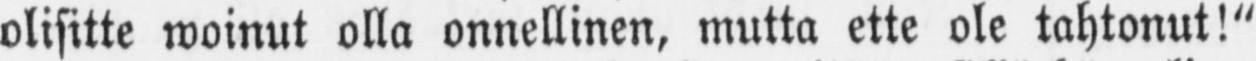olisitte woinut olla onnellinen, mutta ette ole tahtonut!"
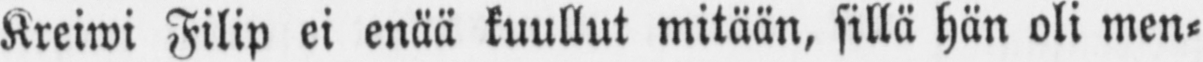Kreiwi Filip ei enää kuullut mitään, sillä hän oli men-
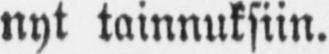nyt tainnuksiin.
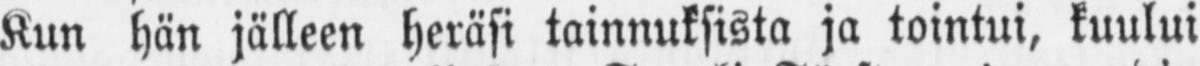Kun hän jälleen heräsi tainnuksista ja tointui, kuului
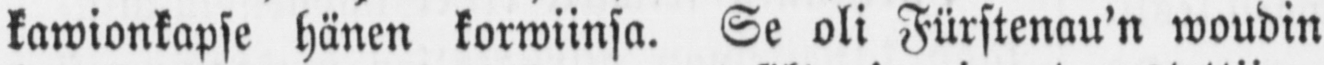kawionkapse hänen korwiinsa. Se oli Fürstenau'n woudin
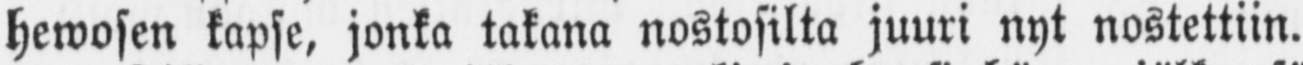hewosen kapse, jonka takana nostosilta juuri nyt nostettiin.
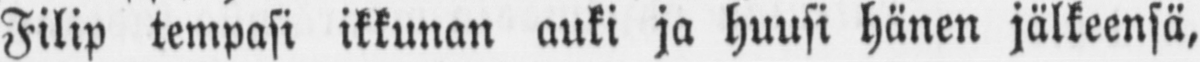Filip tempasi ikkunan auki ja huusi hänen jälkeensä,
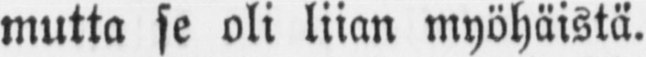mutta se oli liian myöhäistä.
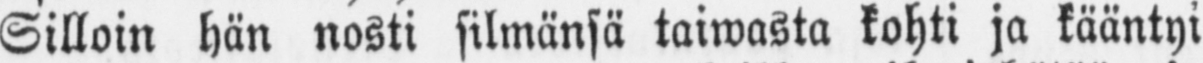Silloin hän nosti silmänsä taiwasta kohti ja kääntyi
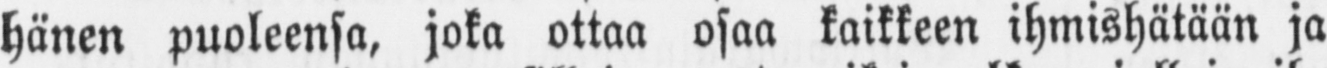hänen puoleensa, joka ottaa osaa kaikkeen ihmishätään ja
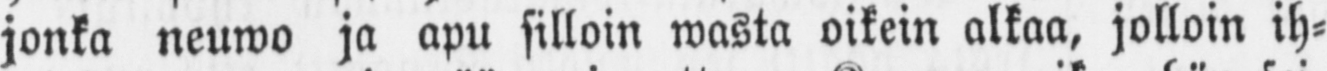jonka neuwo ja apu silloin wasta oikein alkaa, jolloin ih-
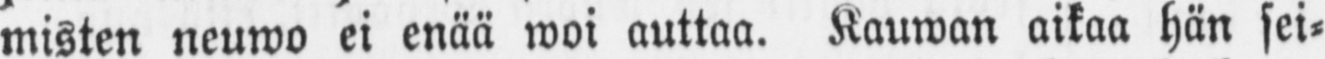misten neuwo ei enää woi auttaa. Kauwan aikaa hän sei-
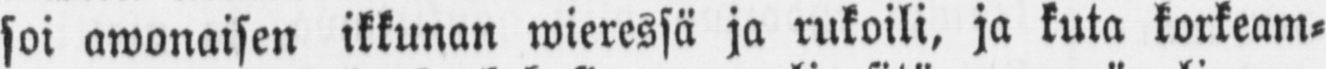soi awonaisen ikkunan wieressä ja rukoili, ja kuta korkeam-
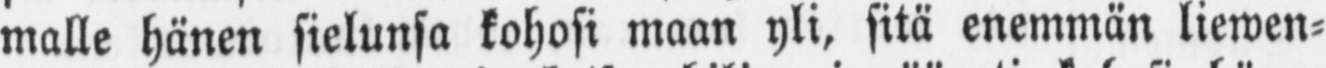malle hänen sielunsa kohosi maan yli, sitä enemmän liewen-
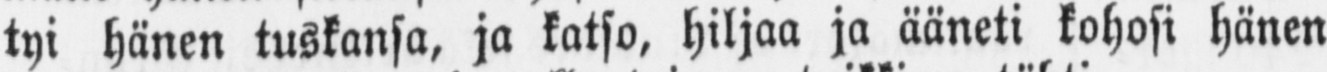tyi hänen tuskansa, ja katso, hiljaa ja ääneti kohosi hänen
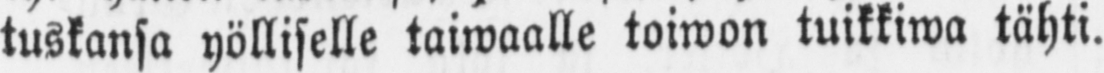tuskansa yölliselle taiwaalle toiwon tuikkiwa tähti.
